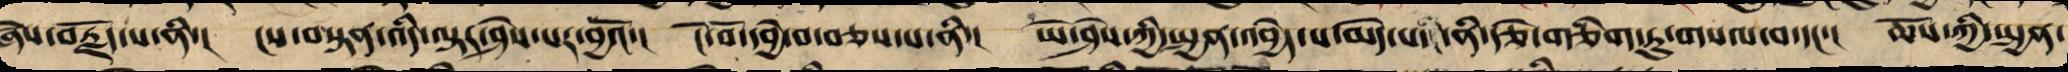ཞེས་བརྗོད་པ་ནི་། ངས་བསྟན་འདི་ལྟར་ཤེས་པར་བྱའོ་། ངོ་བོ་དབྱེ་བ་བཅས་པ་ནི་། ཡེ་ཤེས་ཀྱི་སྤྱན་འབྱེད་པ་མེད་པའི་ནི་རྩེ་གཅིག་ཏུ་གསལ་བ་དང་། ཆོས་ཀྱི་སྤྱན་
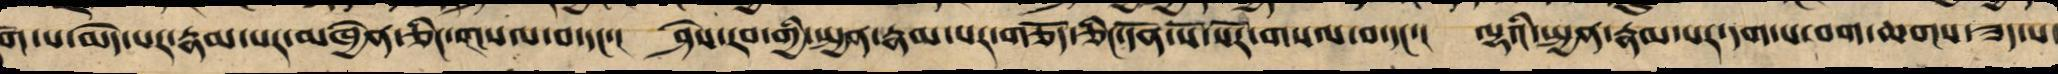ག་པ་མེད་པར་རྣམ་པར་མཁྱེན་ཅིང་གསལ་བ་དང་། ཤེས་རབ་ཀྱི་སྤྱན་རྣམ་པར་གཅོད་ཅིང་དོན་སོ་སོར་གསལ་བ་དང་། ལྷའི་སྤྱན་རྣམ་པར་དག་པ་བག་ཆགས་ཟད་པ་
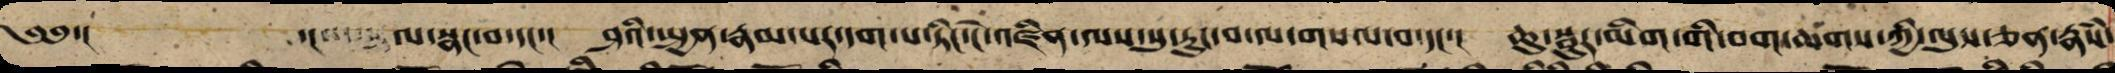༄༅་། ་། ལ་སྣང་བ་དང་། ཤའི་སྤྱན་རྣམ་པར་དག་པ་ཏིང་ངེ་འཛིན་ལས་སུ་རུང་བ་ལ་གསལ་བ་དང་། ཆུ་སྦུར་གྱི་མིག་གི་བག་ཆགས་ཀྱི་ལུས་ཅན་རྣཾས་
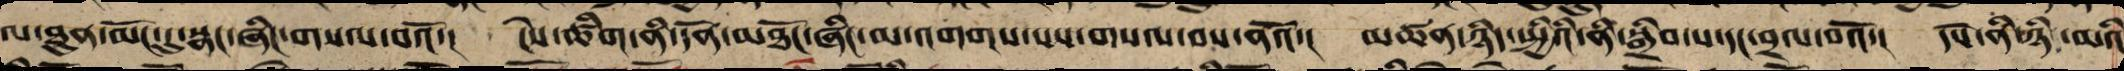ལ་ཐུན་མོང་དུ་སྣང་ཞིང་གསལ་བའོ་། ངེས་ཚིག་ནི་དོན་མཐོང་ཞིང་མ་འགགས་པས་གསལ་བས་ནའོ་། མཚན་ཉིད་སྤྱིའི་ནི་སྒྲིབ་པ་དང་བྲལ་བའོ་། དཔེ་ནི་ཉི་མའི
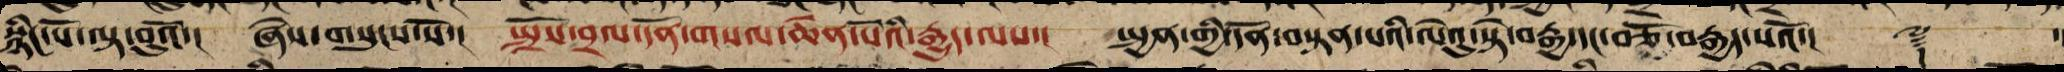སྙིང་པོ་ལྟ་བུའོ་། ཞེས་གསུངས་སོ་། སྤྲོས་བྲལ་དོན་གསལ་ཆེན་པོའི་རྒྱུད་ལས་། སྤྱན་གྱི་དོན་བསྟན་པའི་ལེའུ་སྟེ་བརྒྱ་དང་བཅོ་བརྒྱད་པའོ་།། ༈ ་
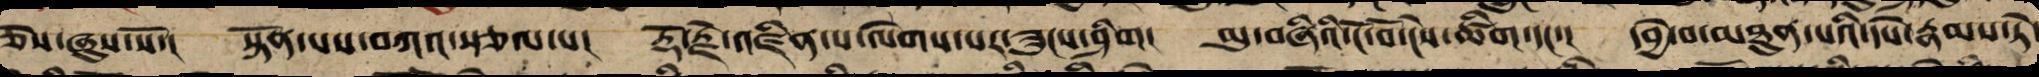ཅེས་ཞུས་སོ་། སྟོན་པས་བཀའ་སྩལ་པ། རྡོ་རྗེ་འཛིན་པ་ལེགས་པར་ཟུངས་ཤིག། མུ་བཞིའི་ངོ་བོ་ངེས་ཚིག་དང་། དབྱེ་བ་མཐུན་པའི་དཔེ་རྣམས་ཏེ་
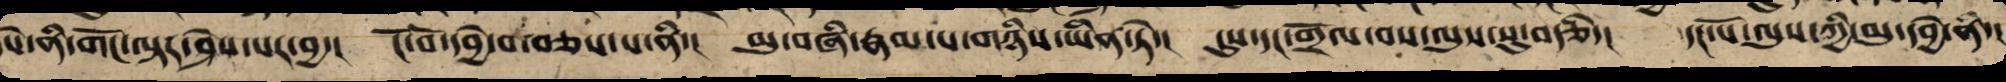དཔེ་ནི་གོང་ལྟར་ཤེས་པར་བྱ་། ངོ་བོ་དབྱེ་བ་བཅས་པ་ནི་། མུ་བཞི་རྣམ་པ་གཉིས་ཡིན་ཏེ་། དུས་དང་གྲོལ་བས་ལུས་སུ་བརྩི་། དང་པོ་ལུས་ཀྱི་མུ་དབྱེ་ནི་།
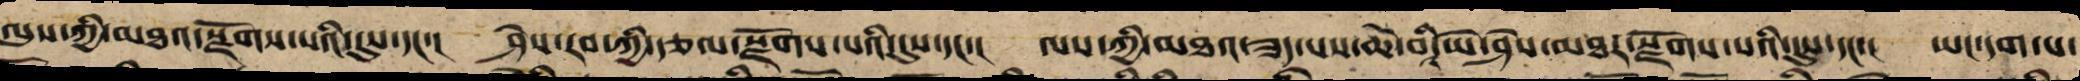ལུས་ཀྱི་མཐའ་སྫོགས་པའི་དུས་དང་། ཤེས་རབ་ཀྱི་རྩལ་སྫོགས་པའི་དུས་དང་། ལས་ཀྱི་མཐའ་ཟད་པས་ཆེ་བི་ཡེ་ཤེས་མཐར་སྫོགས་པའི་དུས་དང་། ཡང་དག་པ་
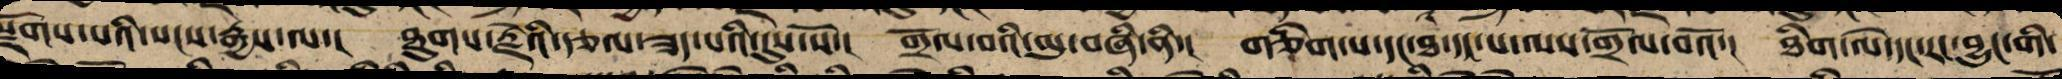སྫོགས་པའི་སངས་རྒྱས་ལ་། ཐུགས་རྗེའི་རྩལ་ཟད་པའི་དུས་སོ་། གྲོལ་བའི་མུ་བཞི་ནི་། གཅིག་པ་དང་ཐ་དད་པ་ལས་གྲོལ་བའོ་། ཐིག་ལེ་དང་རང་བྱུང་གི་
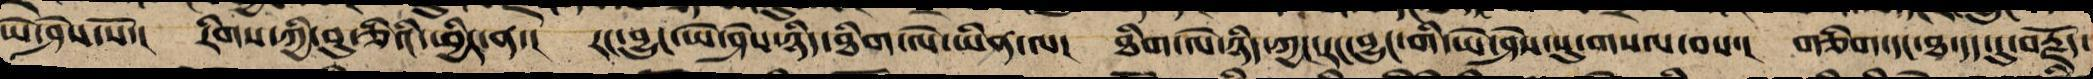ཡེ་ཤེས་སོ་། རིགས་ཀྱི་བུ་ཅིའི་ཕྱིར་ན་། རང་བྱུང་ཡེ་ཤེས་ཉིད་ཐིག་ལེ་ཡིན་ལ། ཐིག་ལེ་ཉིད་ཀྱང་རང་བྱུང་གི་ཡེ་ཤེས་སུ་གསལ་བས་། གཅིག་དང་ཐ་དད་དུ་བརྗོད་
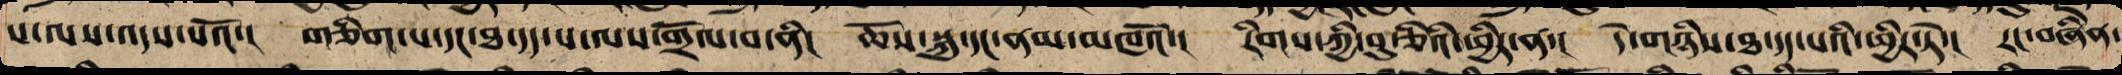པ་ལས་འདས་པའོ་། གཅིག་པ་དང་ཐ་དད་པ་ལས་གྲོལ་བ་ནི། ཆོས་སྐུ་དང་ནམ་མཁའོ་། རིགས་ཀྱི་བུ་ཅིའི་ཕྱིར་ན་། དེ་གཉིས་ཐ་དད་པའི་ཕྱིར་ཏེ་། རང་བཞིན་
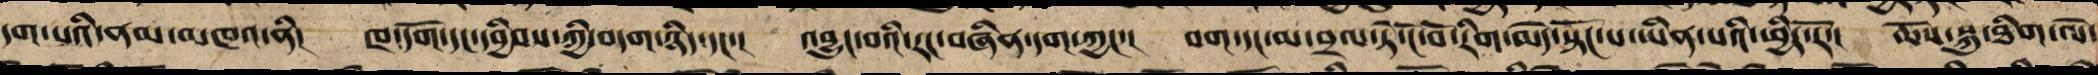དག་པའི་ནམ་མཁའ་ནི། ཁ་དོག་དང་དབྱིབས་ཀྱི་བདག་ཉིད་དང་། འབྱུང་བའི་རང་བཞིན་དག་ཀྱང་། བག་དང་མ་བྲལ་ཏེ་ངོ་བོ་རིག་མེད་སྟོང་པ་ཡིན་པའི་ཕྱིར་རོ་། ཆོས་སྐུ་ཐིག་ལེ་
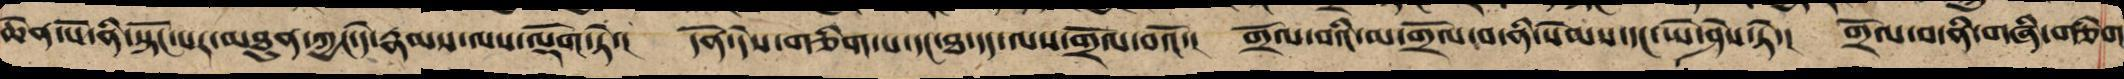ཆེན་པོ་ནི་སྟོང་པར་མཐུན་ཀྱང་དེ་རྣམས་ལས་ལྡོག་ཏེ་། དོན་དེས་གཅིག་པ་དང་ཐ་དད་པ་ལས་གྲོལ་བའོ་། གྲོལ་བའི་མ་གྲོལ་བ་ནི་སེམས་དང་ཡེ་ཤེས་ཏེ་། གྲོལ་བ་ནི་གཞི་གཅིག
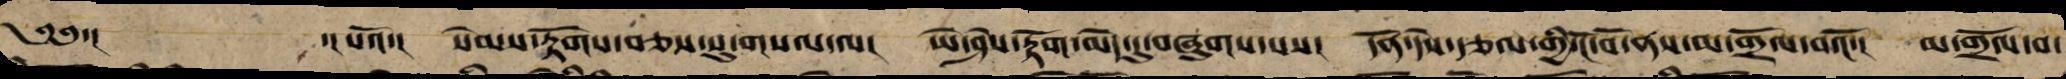༄༅་། ་། པའོ་། སེམས་རྟོག་བཅས་སུ་གསལ་ལ། ཡེ་ཤེས་རྟོག་མེད་དུ་བཞུགས་པས། དོན་དེས་རྩལ་གྱི་ངོ་བོ་ནས་མ་གྲོལ་བའོ་། མ་གྲོལ་བ་
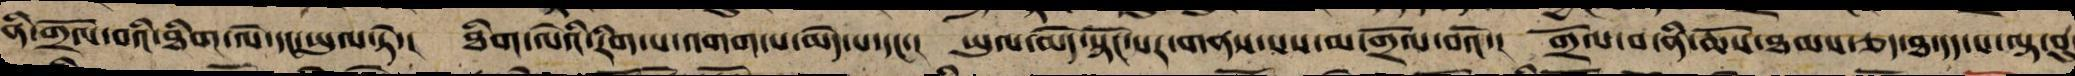ནི་གྲོལ་བའི་ཐིག་ལེ་དང་ཡུལ་ཏེ་། ཐིག་ལེའི་རིག་པ་འགགས་པ་མེད་པ་དང་། ཡུལ་མེད་སྟོང་པར་གནས་པས་མ་གྲོལ་བའོ་། གྲོལ་བ་ནི་ཆོས་ཐམས་ཅད་ཐ་དད་པ་ལྟ་བུ
